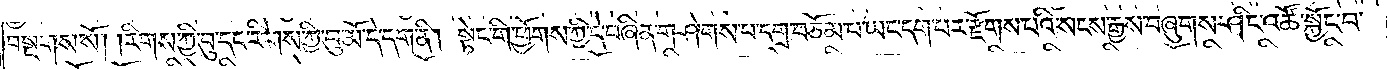བསྔགས་སོ། །རིགས་ཀྱི་བུ་དང་རིགས་ཀྱི་བུ་མོ་དེ་དག་ནི། སྟེང་གི་ཕྱོགས་ཀྱི་དེ་བཞིན་གཤེགས་པ་དགྲ་བཅོམ་པ་ཡང་དག་པར་རྫོགས་པའི་སངས་རྒྱས་བཞུགས་ཤིང་འཚོ་སྐྱོང་བ་
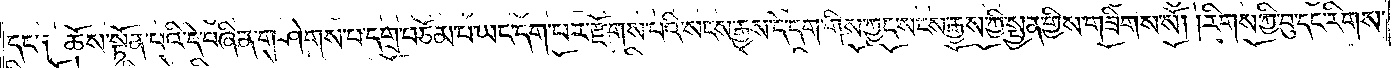དང་༑ ཆོས་སྟོན་པའི་དེ་བཞིན་གཤེགས་པ་དགྲ་བཅོམ་པ་ཡང་དག་པར་རྫོགས་པའི་སངས་རྒྱས་དེ་དག་གིས་ཀྱང་སངས་རྒྱས་ཀྱི་སྤྱན་གྱིས་གཟིགས་སོ། །རིགས་ཀྱི་བུ་དང་རིགས་
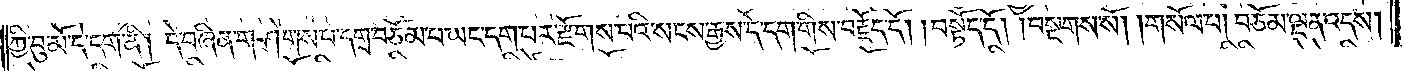ཀྱི་བུ་མོ་དེ་དག་ནི། དེ་བཞིན་གཤེགས་པ་དགྲ་བཅོམ་པ་ཡང་དག་པར་རྫོགས་པའི་སངས་རྒྱས་དེ་དག་གིས་བརྗོད་དོ། །བསྟོད་དོ། །བསྔགས་སོ། །གསོལ་པ། བཅོམ་ལྡན་འདས།
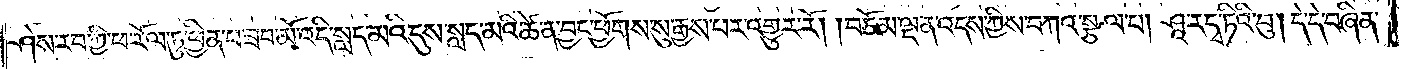ཤེས་རབ་ཀྱི་ཕ་རོལ་ཏུ་ཕྱིན་པ་ཟབ་མོ་འདི་སླད་མའི་དུས་སླད་མའི་ཚེ་ན་བྱང་ཕྱོགས་སུ་རྒྱས་པར་འགྱུར་རོ། །བཅོམ་ལྡན་འདས་ཀྱིས་བཀའ་སྩལ་པ། ཤཱ་ར་དྭ་ཏིའི་བུ། དེ་དེ་བཞིན་
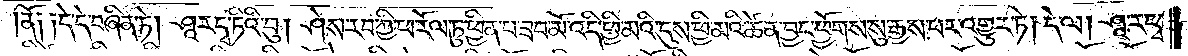ནོ༑ ༑དེ་དེ་བཞིན་ཏེ། ཤཱ་ར་དྭ་ཏིའི་བུ། ཤེས་རབ་ཀྱི་ཕ་རོལ་ཏུ་ཕྱིན་པ་ཟབ་མོ་འདི་ཕྱི་མའི་དུས་ཕྱི་མའི་ཚེ་ན་བྱང་ཕྱོགས་སུ་རྒྱས་པར་འགྱུར་ཏེ། དེ་ལ། ཤཱ་ར་དྭ་
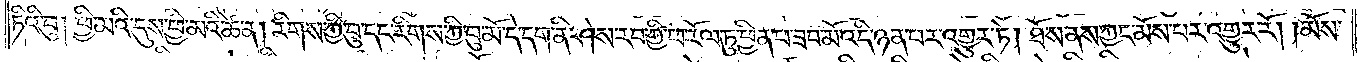ཏིའི་བུ། ཕྱི་མའི་དུས་ཕྱི་མའི་ཚེ་ན། རིགས་ཀྱི་བུ་དང་རིགས་ཀྱི་བུ་མོ་དེ་དག་ནི་ཤེས་རབ་ཀྱི་ཕ་རོལ་ཏུ་ཕྱིན་པ་ཟབ་མོ་འདི་ཉན་པར་འགྱུར་ཏེ། ཐོས་ནས་ཀྱང་མོས་པར་འགྱུར་རོ། །མོས་
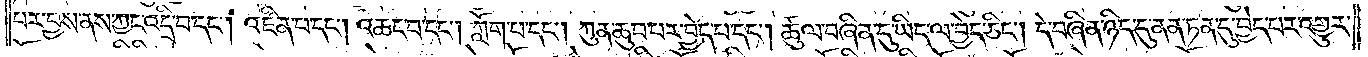པར་བྱས་ནས་ཀྱང་འདྲི་བ་དང༌། འཛིན་པ་དང༌། འཆང་བ་དང༌། ཀློག་པ་དང༌། ཀུན་ཆུབ་པར་བྱེད་པ་དང༌། ཚུལ་བཞིན་དུ་ཡིད་ལ་བྱེད་ཅིང༌། དེ་བཞིན་ཉིད་དུ་ནན་ཏན་དུ་བྱེད་པར་འགྱུར་
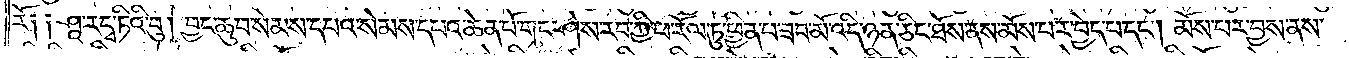རོ༑ ༑ཤཱ་ར་དྭ་ཏིའི་བུ། བྱང་ཆུབ་སེམས་དཔའ་སེམས་དཔའ་ཆེན་པོ་གང་ཤེས་རབ་ཀྱི་ཕ་རོལ་ཏུ་ཕྱིན་པ་ཟབ་མོ་འདི་ཉན་ཅིང་ཐོས་ནས་མོས་པར་བྱེད་པ་དང༌། མོས་པར་བྱས་ནས་
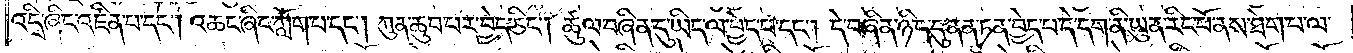འདྲི་ཞིང་འཛིན་པ་དང༌། འཆང་ཞིང་ཀློག་པ་དང༌། ཀུན་ཆུབ་པར་བྱེད་ཅིང༌། ཚུལ་བཞིན་དུ་ཡིད་ལ་བྱེད་པ་དང༌། དེ་བཞིན་ཉིད་དུ་ནན་ཏན་བྱེད་པ་དེ་དག་ནི་ཡུན་རིང་བོ་ནས་ཐེག་པ་ལ་
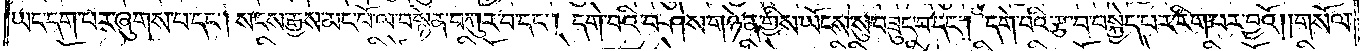ཡང་དག་པར་ཞུགས་པ་དང༌། སངས་རྒྱས་མང་པོ་ལ་བསྙེན་བཀུར་བ་དང༌། དགེ་བའི་བཤེས་གཉེན་གྱིས་ཡོངས་སུ་བཟུང་བ་དང༌། དགེ་བའི་རྩ་བ་བསྐྱེད་པར་རིག་པར་བྱའོ། །གསོལ་
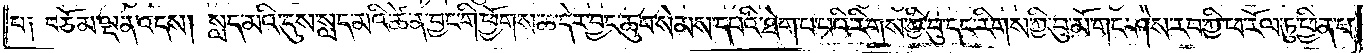པ༑ བཅོམ་ལྡན་འདས། སླད་མའི་དུས་སླད་མའི་ཚེ་ན་བྱང་གི་ཕྱོགས་ཆ་དར་བྱང་ཆུབ་སེམས་དཔའི་ཐེག་པ་བའི་རིགས་ཀྱི་བུ་དང་རིགས་ཀྱི་བུ་མོ་གང་ཤེས་རབ་ཀྱི་ཕ་རོལ་ཏུ་ཕྱིན་པ་
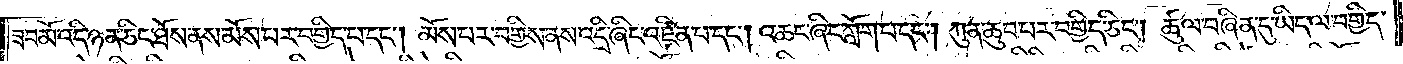ཟབ་མོ་འདི་ཉན་ཅིང་ཐོས་ནས་མོས་པར་བགྱིད་པ་དང༌། མོས་པར་བགྱིས་ནས་འདྲི་ཞིང་འཛིན་པ་དང༌། འཆང་ཞིང་ཀློག་པ་དང༌། ཀུན་ཆུབ་པར་བགྱིད་ཅིང༌། ཚུལ་བཞིན་དུ་ཡིད་ལ་བགྱིད་
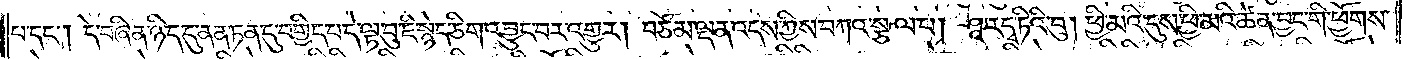པ་དང༌། དེ་བཞིན་ཉིད་དུ་ནན་ཏན་དུ་བགྱིད་པ་དེ་ལྟ་བུ་ཇི་སྙེད་ཅིག་འབྱུང་བར་འགྱུར། བཅོམ་ལྡན་འདས་ཀྱིས་བཀའ་སྩལ་པ། ཤཱ་ར་དྭ་ཏིའི་བུ། ཕྱི་མའི་དུས་ཕྱི་མའི་ཚེ་ན་བྱང་གི་ཕྱོགས་
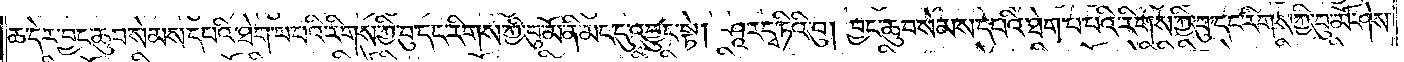ཆ་དེར་བྱང་ཆུབ་སེམས་དཔའི་ཐེག་པ་པའི་རིགས་ཀྱི་བུ་དང་རིགས་ཀྱི་བུ་མོ་ནི་མང་དུ་འབྱུང་སྟེ། ཤཱ་ར་དྭ་ཏིའི་བུ། བྱང་ཆུབ་སེམས་དཔའི་ཐེག་པ་པའི་རིགས་ཀྱི་བུ་དང་རིགས་ཀྱི་བུ་མོ་ཤེས་
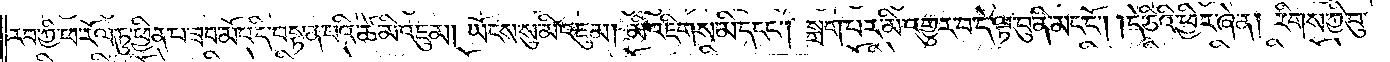རབ་ཀྱི་ཕ་རོལ་ཏུ་ཕྱིན་པ་ཟབ་མོ་འདི་བསྟན་པའི་ཚེ་མི་འཇུམ་། ཡོངས་སུ་མི་འཇུམ། མི་འཇིགས་མི་དངང༌། སྐྲག་པར་མི་འགྱུར་བ་དེ་ལྟ་བུ་ནི་མང་ངོ༌། །དེ་ཅིའི་ཕྱིར་ཞེ་ན། རིགས་ཀྱི་བུ་
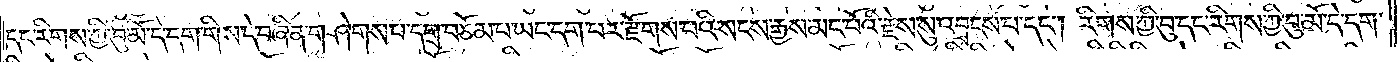དང་རིགས་ཀྱི་བུ་མོ་དེ་དག་གིས་དེ་བཞིན་གཤེགས་པ་དགྲ་བཅོམ་པ་ཡང་དག་པར་རྫོགས་པའི་སངས་རྒྱས་མང་པོའི་རྗེས་སུ་འབྲངས་པ་དང༌། རིགས་ཀྱི་བུ་དང་རིགས་ཀྱི་བུ་མོ་དེ་དག་
